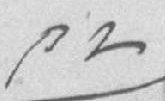༩༢
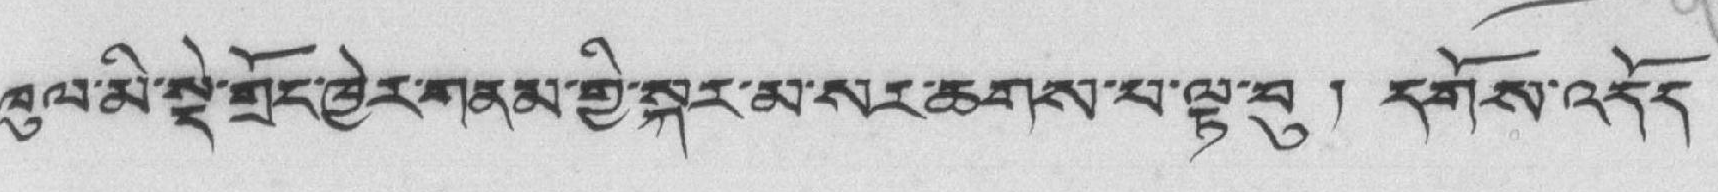ཁུལ་མི་སྡེ་གྲོང་ཁྱེར་གནམ་གྱི་སྐར་མ་སར་ཆགས་པ་ལྟ་བུ ། དགོས་འདོད
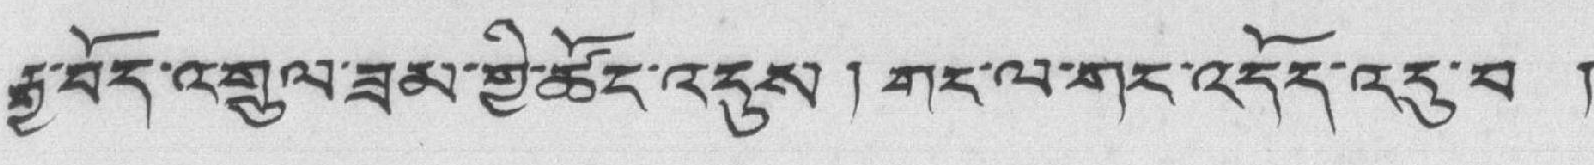རྒྱ་བོད་འགྲུལ་ཟམ་གྱི་ཚོང་འདུས། གང་ལ་གར་འདོད་འདུ་བ །
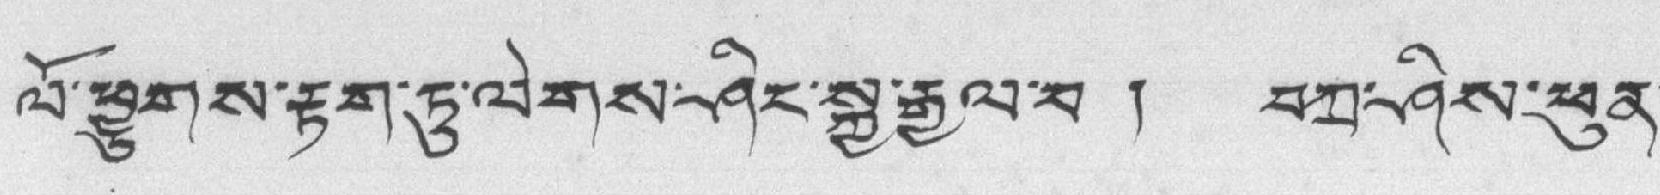ལོ་ཕྱུགས་རྟག་ཏུ་ལེགས་ཤིང་སྐྱ་རྒྱལ་བ ། བཀྲ་ཤིས་ཕུན་
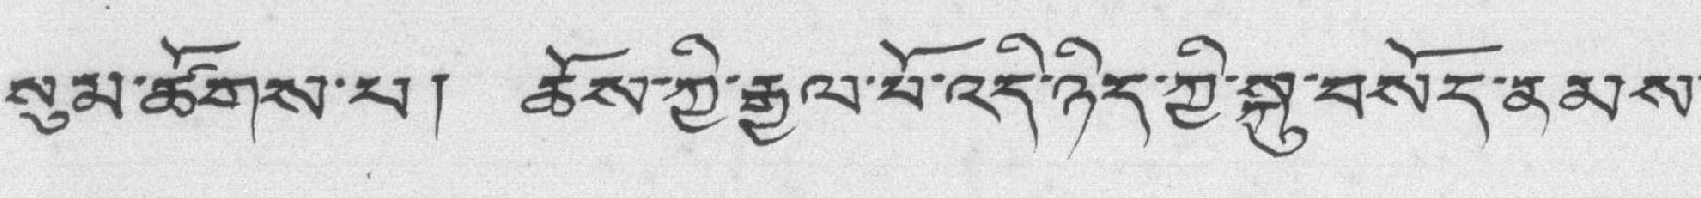སུམ་ཚོགས་པ། ཆོས་ཀྱི་རྒྱལ་པོ་འདི་ཉིད་ཀྱི་སྐུ་བསོད་ནམས་
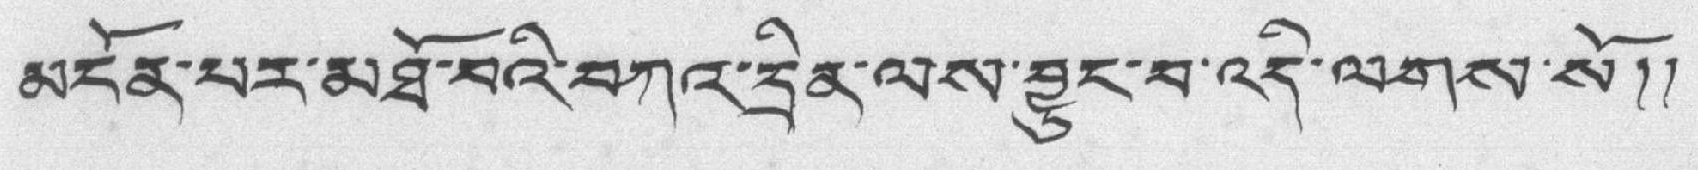མངོན་པར་མཐོ་བའི་བཀའ་དྲིན་ལས་བྱུང་བ་འདི་ལགས་སོ།།
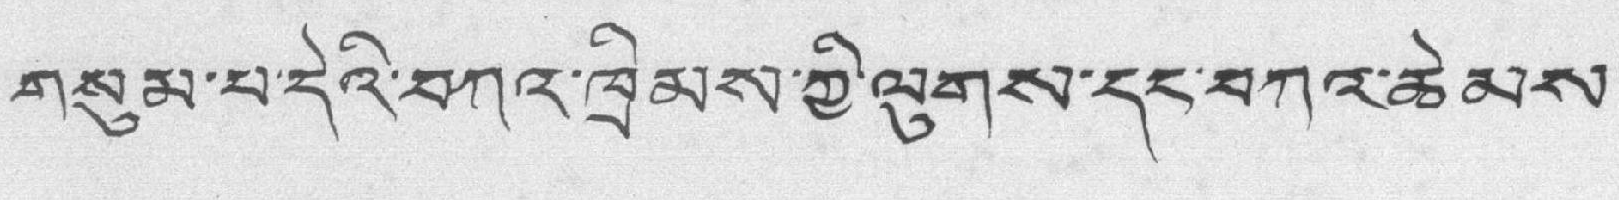གསུམ་པ་དེའི་བཀའ་ཁྲིམས་ཀྱི་ལུགས་དང་བཀའ་ཆེམས་
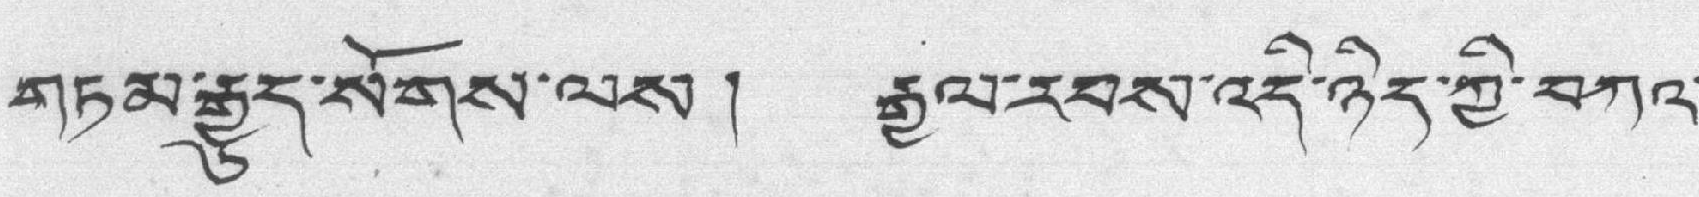གཏམ་རྒྱུད་སོགས་ལས། རྒྱལ་རབས་འདི་ཉིད་ཀྱི་བཀའ་
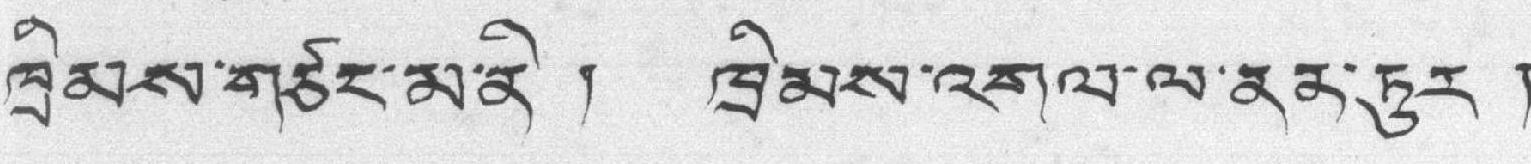ཁྲིམས་གཙང་མ་ནི ། ཁྲིམས་འགལ་ལ་ནན་ཏུར །
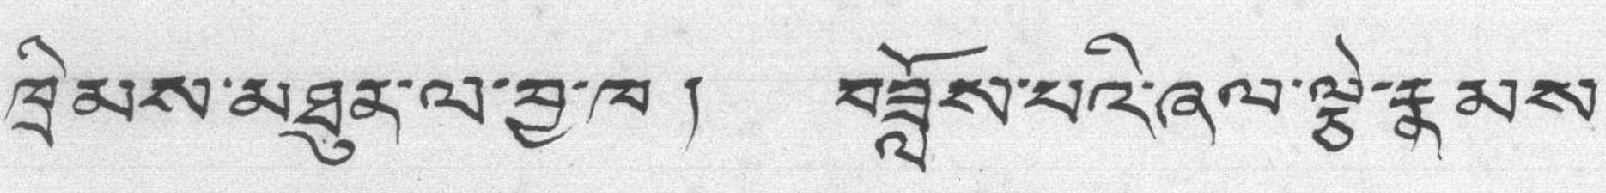ཁྲིམས་མཐུན་ལ་བྱ་ཁ། བཟློས་པའི་ཞལ་ལྕེ་རྣམས་
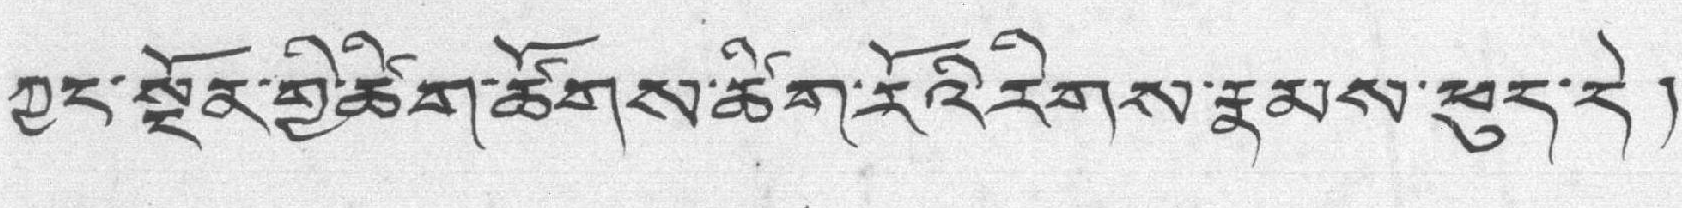ཀྱང་སྔོན་གྱི་ཚིག་ཚོགས་ཚིག་རོའི་རིགས་རྣམས་ཕུད་དེ།
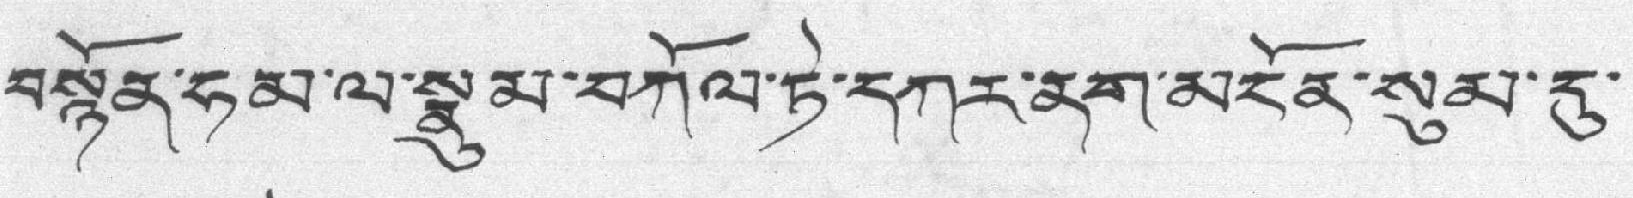བསྙོན་ཧམ་ལ་སྣུམ་བཀོལ་ཏེ་དཀར་ནག་མངོན་སུམ་དུ་
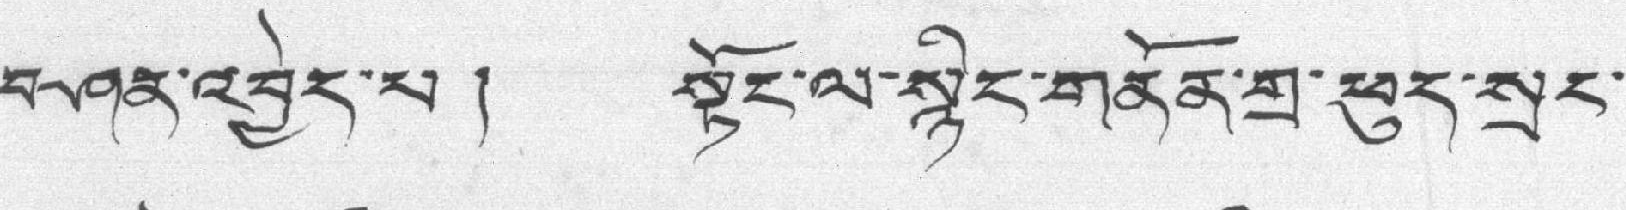བཤན་འབྱེད་པ ། སྟོང་ལ་སྙིང་གནོན་གྲ་ཕུད་སྲང་
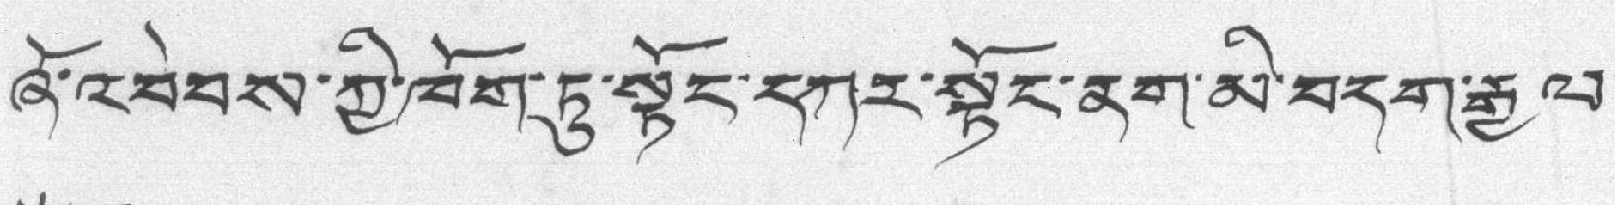ཞོ་འབེབས་ཀྱི་ཁོག་ཏུ་སྟོང་དཀར་སྟོང་ནག་མི་བདག་རྒྱལ་
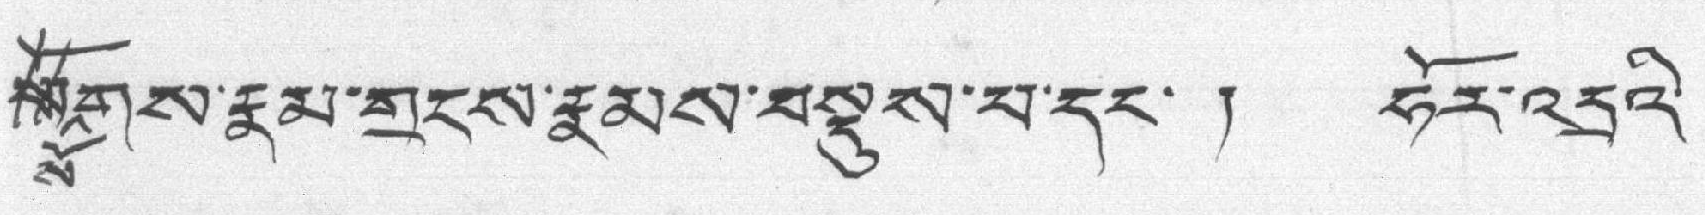སོསོགས་རྣམ་གྲངས་རྣམས་བསྡུས་པ་དང་ ། ཧོར་འདྲའི་
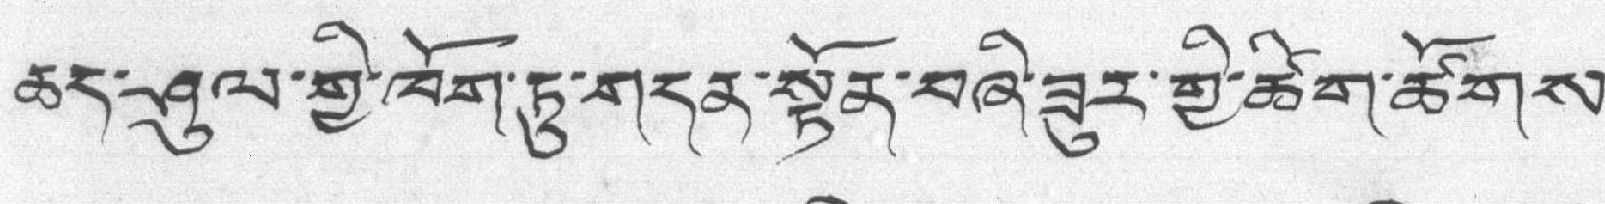ཆད་ཤུལ་གྱི་ཁོག་ཏུ་གདན་སྟོན་བཞི་ཟུར་གྱི་ཚིག་ཚོགས་
